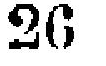26
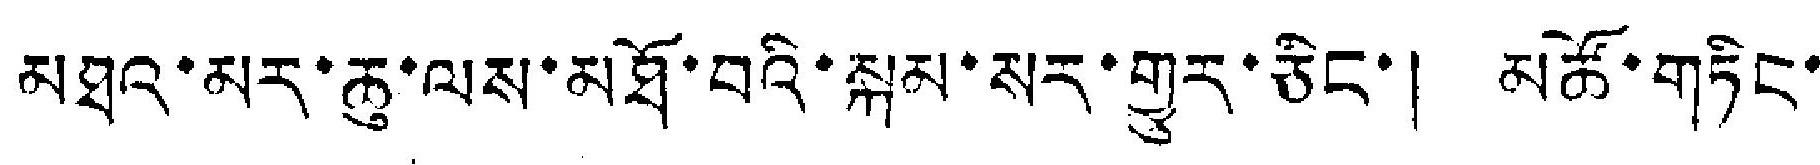མཐའ་མར་ཆུ་ལས་མཐོ་བའི་སྐམ་སར་གྱུར་ཅིང་། མཚོ་གཏིང་
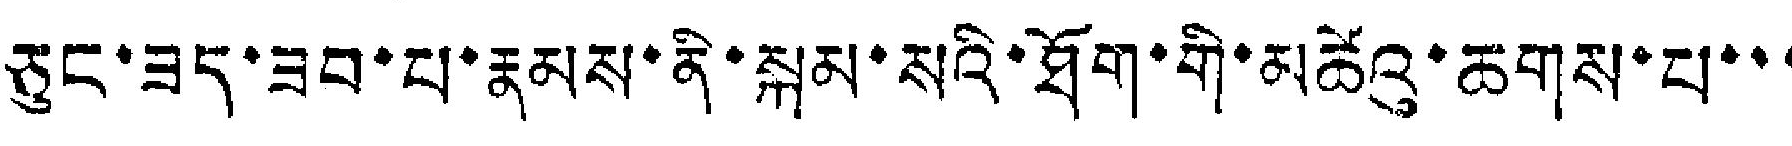ཅུང་ཟད་ཟབ་པ་རྣམས་ནི་སྐམ་སའི་ཐོག་གི་མཚེའུ་ཆགས་པ་་་
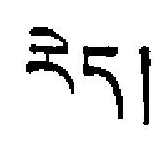རེད།
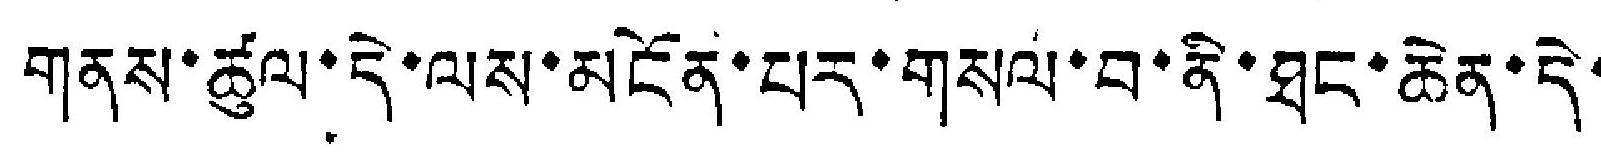གནས་ཚུལ་དེ་ལས་མངོན་པར་གསལ་བ་ནི་ཐང་ཆེན་དེ་
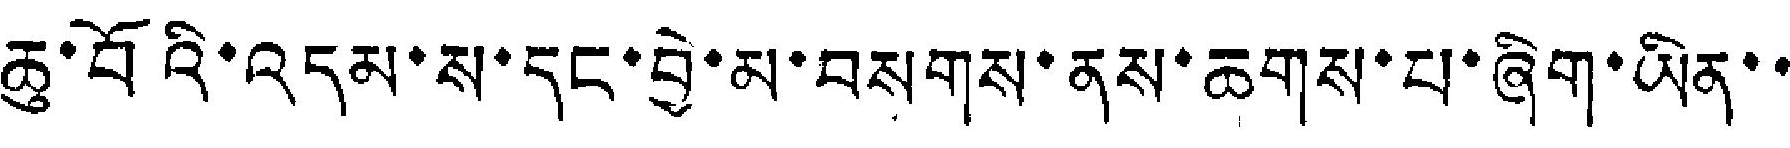ཆུ་བོའི་འདམ་ས་དང་བྱེ་མ་བསགས་ནས་ཆགས་པ་ཞིག་ཡིན་་
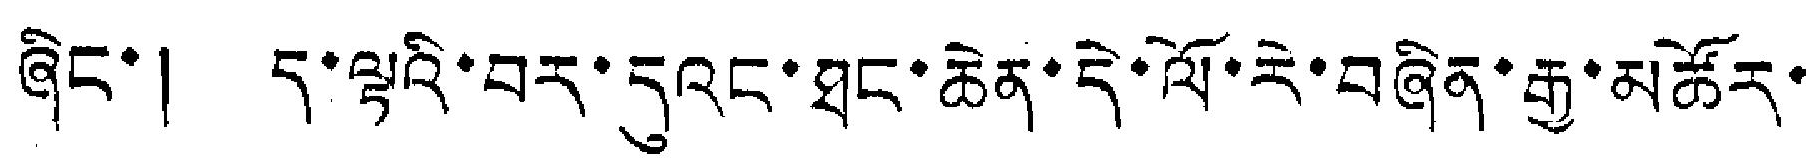ཞིང་། ད་ལྟའི་བར་དུའང་ཐང་ཆེན་དེ་ལོ་རེ་བཞིན་རྒྱ་མཚོར་
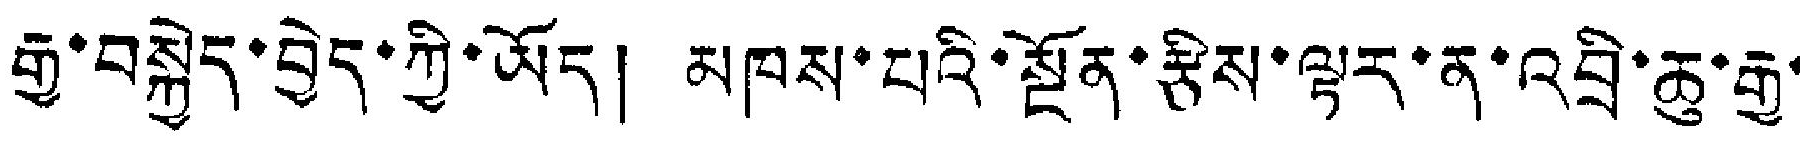རྒྱ་བསྐྱེད་བྱེད་ཀྱི་ཡོད། མཁས་པའི་སྔོན་རྩིས་ལྟར་ན་འབྲི་ཆུ་རྒྱ་
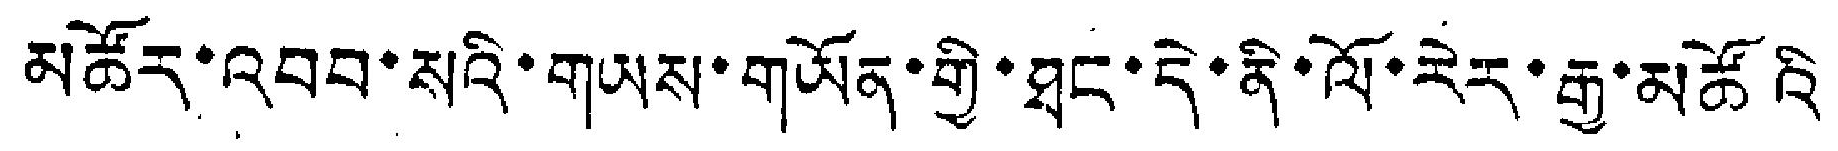མཚོར་འབབ་སའི་གཡས་གཡོན་གྱི་ཐང་དེ་ནི་ལོ་རེར་རྒྱ་མཚོའི
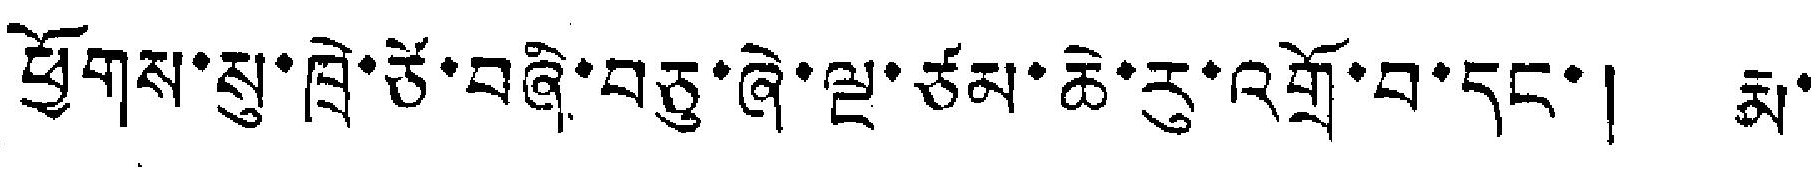ཕྱོགས་སུ་ཁྲེ་ཙེ་བཞི་བཅུ་ཞེ་ལྔ་ཙམ་ཆེ་རུ་འགྲོ་བ་དང་། རྨ་
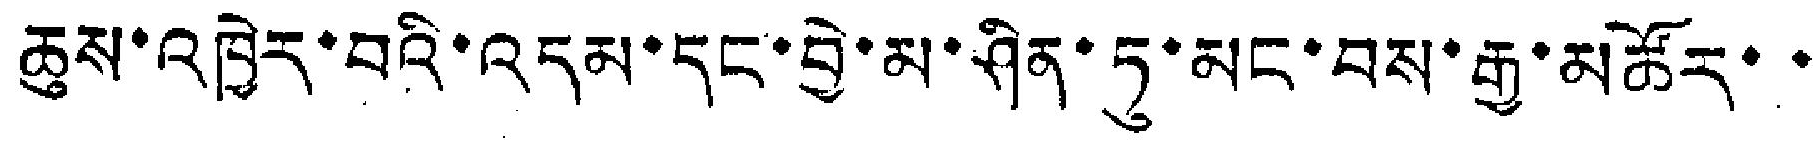ཆུས་འཁྱེར་བའི་འདམ་དང་བྱེ་མ་ཤིན་ཏུ་མང་བས་རྒྱ་མཚོར་་
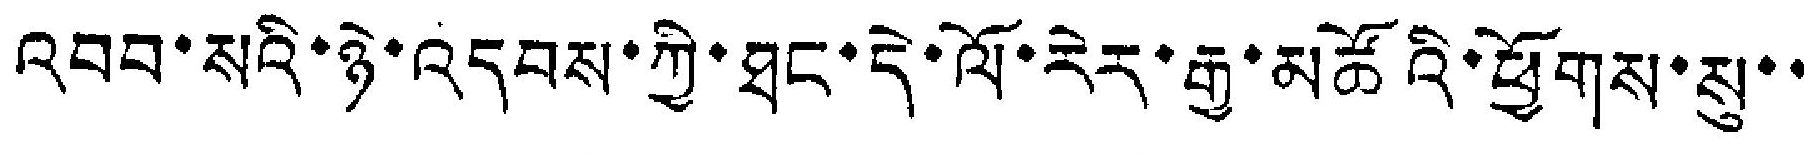འབབ་སའི་ཉེ་འདབས་ཀྱི་ཐུང་དེ་ལོ་རེར་རྒྱ་མཚོའི་ཕྱོགས་སུ་་
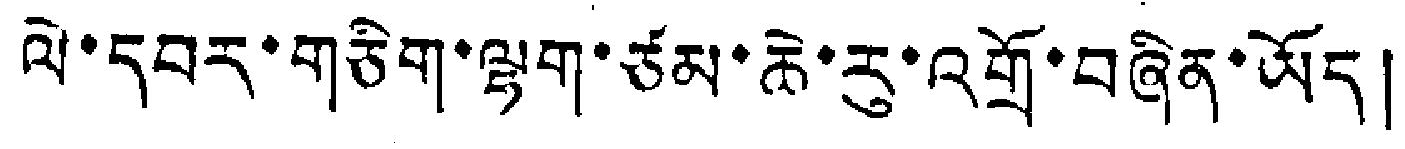ལེ་དབར་གཅིག་ལྷག་ཙམ་ཆེ་རུ་འགྲོ་བཞིན་ཡོད།
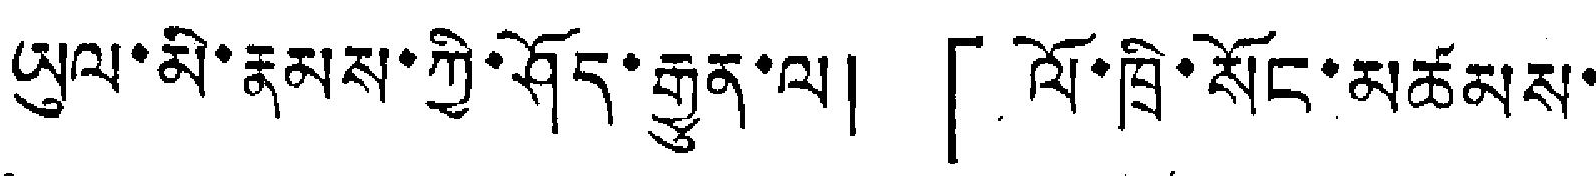ཡུལ་མི་རྣམས་ཀྱི་ཤོད་རྒྱུན་ལ། 「ལོ་ཁྲི་སོང་མཚམས་
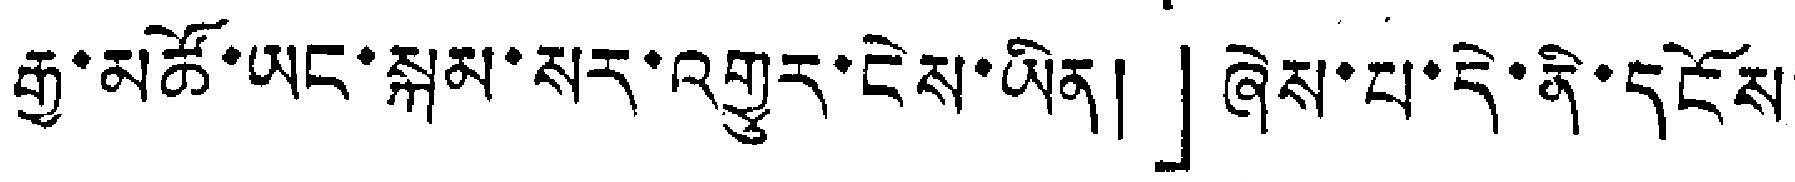རྒྱ་མཚོ་ཡང་སྐམ་སར་འགྱུར་ངེས་ཡིན།」ཞེས་པ་དེ་ནི་དངོས་
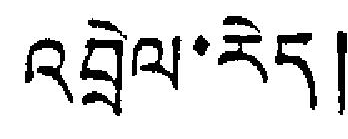འབྲེལ་རེད།
